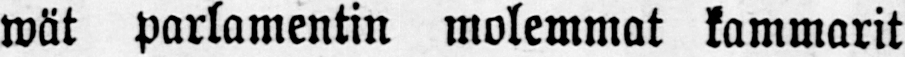wät parlamentin molemmat kammarit
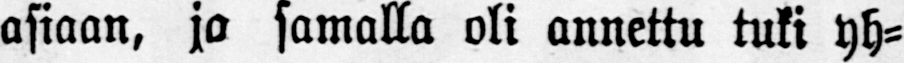asiaan, jo samalla oli annettu tuki yh-
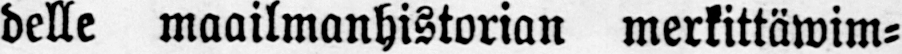delle maailmanhistorian merkittäwim-
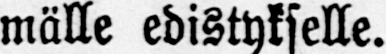mälle edistykselle.
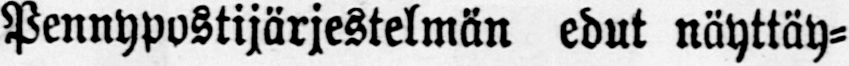Pennypostijärjestelmän edut näyttäy-
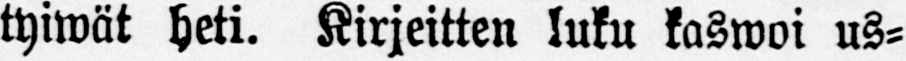tyiwät heti. Kirjeitten luku kaswoi us-
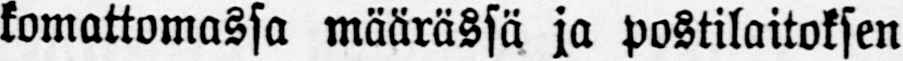komattomassa määrässä ja postilaitoksen
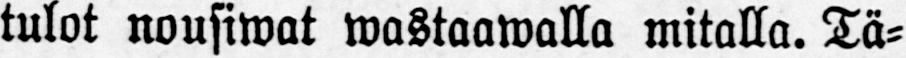tulot nousiwat wastaawalla mitalla. Tä-
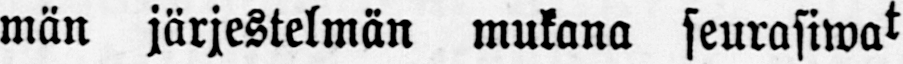män järjestelmän mukana seurasiwat
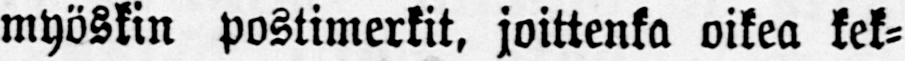myöskin postimerkit, joittenka oikea kek-
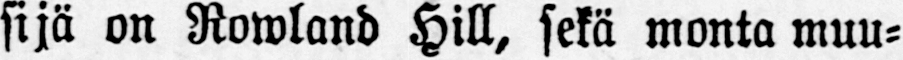sijä on Rowland Hill, sekä monta muu-
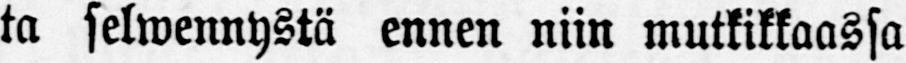ta selwennystä ennen niin mutkikkaassa
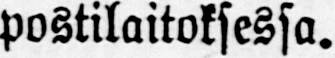postilaitoksessa.
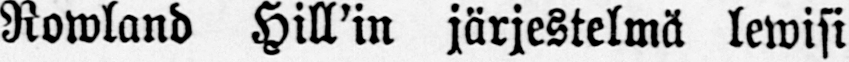Rowland Hill'in järjestelmä lewisi
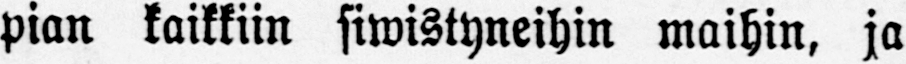pian kaikkiin siwistyneihin maihin, ja
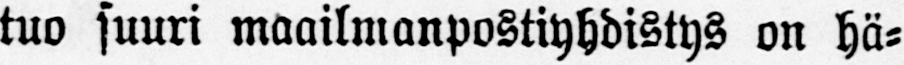tuo suuri maailmanpostiyhdistys on hä-
